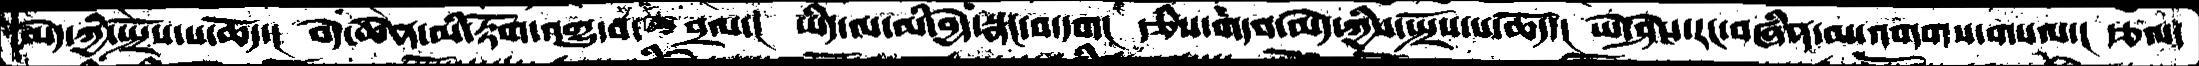མེད་ཀྱི་སྤྲོས་པ་ཆོད་།  བདེ་ཆེན་མི་རྟོག་འགྱུ་བ་བྲལ་།  ཡིད་ལ་མི་བྱེད་སྣང་བ་དག།  རྩིས་གདབ་མེད་ཀྱིས་སྤྲོས་པ་ཆོད་།  ཡེ་ཤེས་རང་བཞིན་མ་འགགས་གསལ་།  རྩལ་
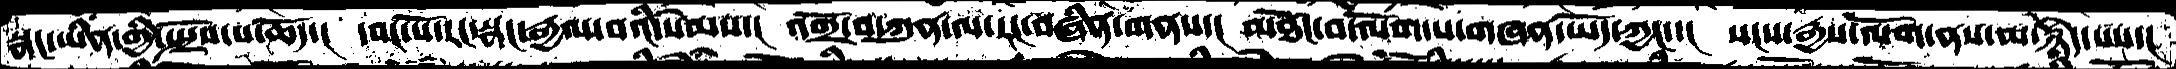སྣང་ཡིན་གྱི་སྤྲོས་པ་ཆོད་།  དབང་པོ་རང་སྣང་རྒྱལ་བའི་སེམས་།  འགྲོ་བ་ཀུན་ལ་རང་བཞིན་གནས་།  མཐོང་བ་ལོག་པ་གཞན་ཡོད་ཀྱང་།  སངས་རྒྱས་ལོག་ནས་མ་རྙེད་པས་།
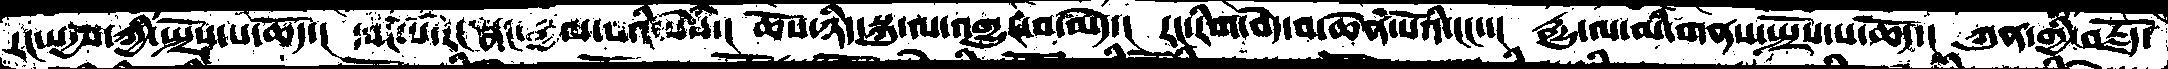རང་སདྱས་ཀྱི་སྤྲོས་པ་ཆོད་།  དབང་པོ་རང་སྣང་རྒྱལ་བའི་སེཾས་།  ཆོས་ཉིད་སྐུ་ལ་འགྱུར་བ་མེད་།  རང་རིག་བདེ་བ་ཆེན་པོའི་ངང་་།  རྒྱུ་ལ་མི་གནས་སྤྲོས་པ་ཆོད་།  ཀུན་གྱི་བརྗོད་
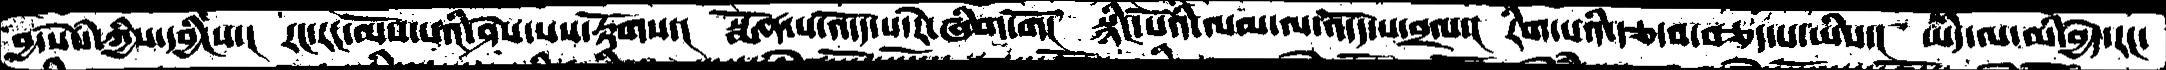བྱ་སེཾས་ཀྱིས་དབྱིངས་།  རང་རང་མོས་པའི་ཤེས་པས་རྟོགས་།  སྨོན་པ་འདོད་པ་རེ་ཞིག་གོ།  སྙིང་པོའི་ལམ་ལ་འདོད་པ་བྲལ་།  རིག་པའི་རྩ་བ་བཅད་པ་ཡིས་།  ཡིད་ལ་མི་བྱེད་རང་
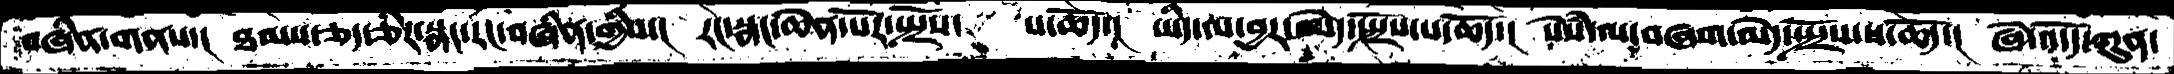བཞིན་གནས་།  ཐམས་ཅད་ཅིར་སྣང་རང་བཞིན་གྱིས་།  རང་སྣང་ཆེན་པོར་སྤྲོས་   པ་ཆོད་།  ཡིད་ལ་བྱར་མེད་སྤྲོས་པ་ཆོད་།  སེཾས་ལ་བཞག་མེད་སྤྲོས་པ་ཆོད་།  ཞེ་འདོད་ཀུན་
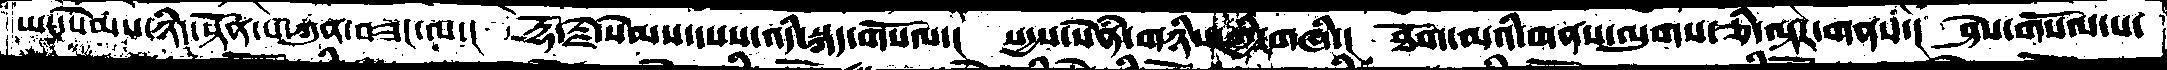ཡང་སེམས་ཉིད་སྟོན་པ་ཀུན་བཟང་ལ་།  རྡོ་རྗེ་སེམས་དཔས་འདི་སྐད་གསོལ་།  སདྱས་སེཾན་གཉིས་ཀྱི་གཞི་།  ཐོག་མའི་གནས་ལུགས་ཅི་ལྟར་གནས་།  ཤེས་གསོལ་པ་
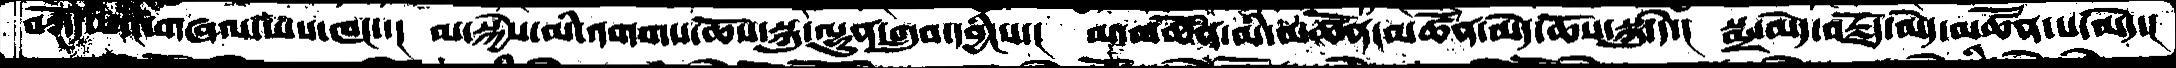བཀོད་པའི་གཞལ་ཡས་ཁང་་།  མ་སྐྱེས་མི་འགགས་ཆོས་སྐུ་ལྷུན་གྲུབ་དབྱིངས་།  མ་མཚོན་མི་མཚོན་མཚོན་མེད་ཆོས་སྐུ་དེ་།  སྨྲ་མེད་བརྗོད་མེད་མཚོན་པ་མེད་།
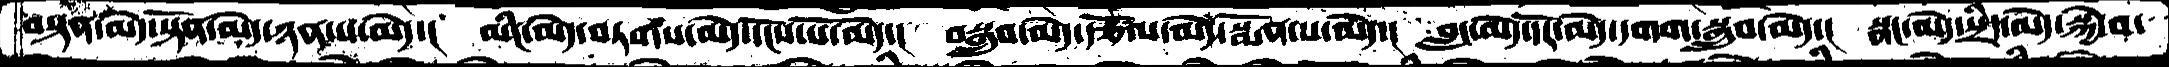བསྟན་མེད་སྟོན་མེད་ཉན་པ་མེད་།  མིང་མེད་བཏགས་མེད་དངོས་པོ་མེད་།  བསྒྲུབ་མེད་རྩོལ་མེད་སྨོན་པ་མེད་།  བླང་མེད་དོར་མེད་དགག་སྒྲུབ་མེད་།  སྣང་མེད་སྲིད་མེད་སྐྱེ་བ་
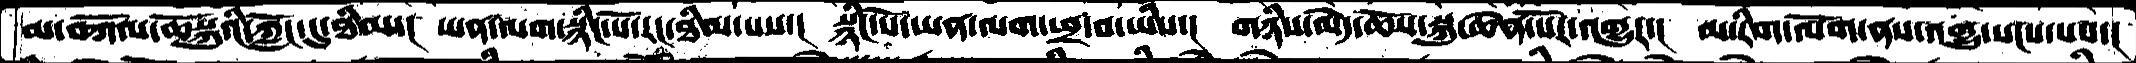མ་བཀོལ་ཆོསྐུའི་ཀློང་དུ་ཐིམ་།  ཡན་ལག་སྙིང་པོ་རང་ཐིམ་པས་།  སྙིང་པོ་ཡན་ལག་ཕྲ་བ་ཡིས་།  གཉིས་མེད་ཆོས་སྐུ་ཆེན་པོར་འགྱུར་།  མ་རིག་ལོག་ནས་འགྱུ་སངས་པས་།
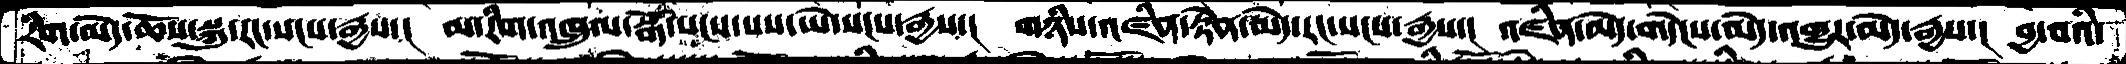རིག་མེད་ཆོས་སྐུ་རང་སངས་རྒྱས་།  མ་རིག་འཁྲུལ་སྒོ་སངས་པས་ཡེ་སངས་རྒྱས་།   གཉིས་འཛིན་རྟེན་མེད་རང་སངས་རྒྱས་།  འཛིན་མེད་གདེངས་མེད་འགྱུར་མེད་རྒྱས་།  བྱ་བའི་
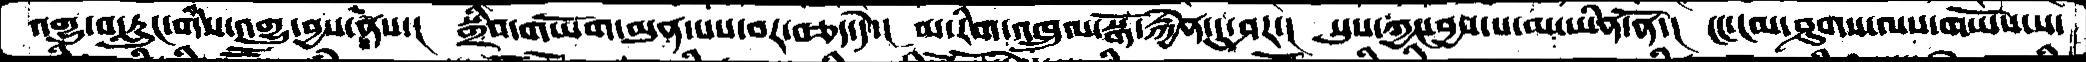འགྱུ་བ་རླུང་གིས་འགྱུ་བྱས་ནས་།   སྒྲིབ་གཡོག་མུན་པས་བར་བཅད་དེ་།  མ་རིག་འཁྲུལ་སྒོ་རྐྱེན་དུ་ཤར་།  སུས་ཀྱང་བྱས་པ་མ་ཡིན་ནོ་།  ངང་ངམ་ཤུགས་ལས་གཡོས་པ་
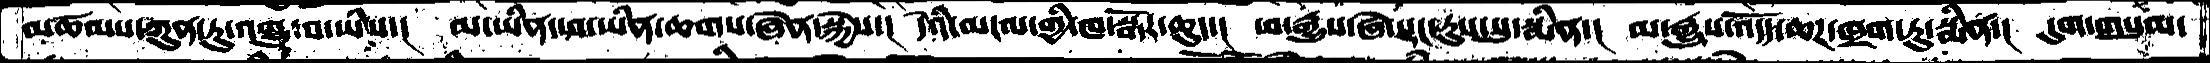མཚམས་ཀུན་ཏུ་འགྱུ་བ་ཡིས་།  མ་ཡིན་ཨ་ཡིན་ཆགས་ཞེན་སྐྱེས་།  དེའི་མངལ་གྱི་ཁ་སྒོར་ཆུད་།  ཕ་རྒྱུས་ཞེ་སྡང་རུས་སུ་སྨིན་།  མ་རྒྱུས་འདོད་ཆཌ་ཁྲག་ཏུ་སྨིན་།  དུག་གསུམ་
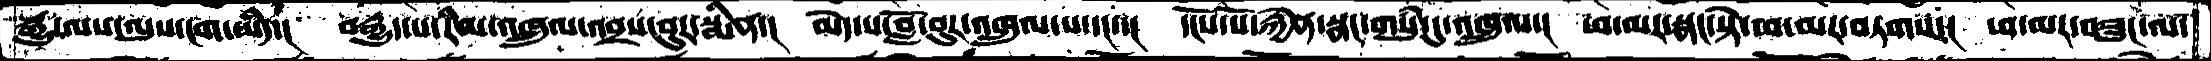རྒྱུ་ལས་ལུས་ངག་ཡིད་།  བརྒྱུད་པ་རིམ་འཁྲུལ་འབྲས་བུར་སྨིན་།  མེད་པ་བློ་བུར་འཁྲུལ་པ་དང་་།  དངོས་པོ་རྐྱེན་སྣང་གསུཾ་དུ་འཁྲུལ་།  ཕ་མར་སྣང་སྟེ་ཕ་མར་བཏགས་།  ཕ་མར་བཟུང་ལ་
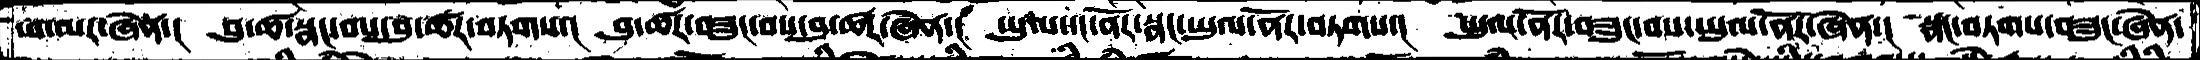ཕ་མར་ཞེན་།  བུ་ཚ་སྣང་བས་བུ་ཚར་བཏགས་།  བུ་ཚར་བཟུང་བས་བུ་ཚར་ཞེན་།  ཡུལ་དང་ནོར་སྣང་ཡུལ་ནོར་བཏགས་།  ཡུལ་ནོར་བཟུང་བས་ཡུལ་ནོར་ཞེན་།  སྣང་བཏགས་བཟུང་ཞེན་
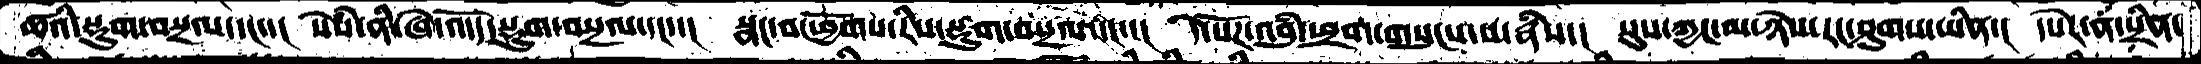ཚའི་སྡུག་བསྔལ་དང་་།  སེཾས་ནི་ཞེ་འདོད་སྡུག་བསྔལ་དང་་།  སྣང་བ་ཕྱོགས་རིས་སྡུག་བསྔལ་དང་་།  དེ་སོཌ་འབུཾ་ཕྲག་གསུངས་པ་རྣཾས་།  སུས་ཀྱང་མ་ཉེས་རང་ཤུགས་ཡིན་།  དཔེར་ན་སྲིན་
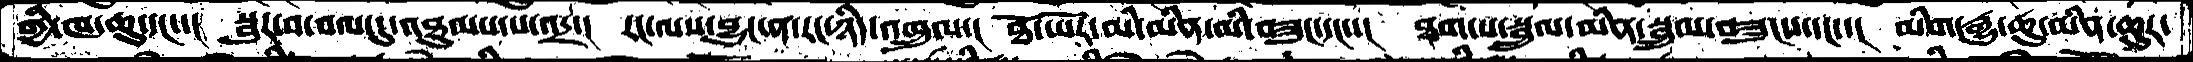གྱི་ཁ་ཆུ་དང་་།  སྦུར་བ་བལ་དུ་འཐུམས་པ་འདྲ་།  རང་ལས་བྱུང་ན་རང་ཉིད་འཁྲུལ་།  ཐོ་ཡོར་མི་མིན་མི་བཟུང་དང་་།  ཐག་པ་སྦྲུལ་མིན་སྦྲུལ་བཟུངས་དང་་།  མིག་རྒྱུ་ཆུ་མིན་ཆུར་
